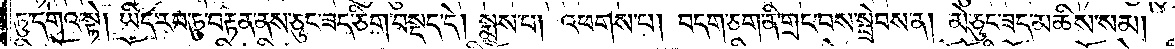ཏུ་དགའ་སྟེ། ཡིད་རབ་ཏུ་བརྟན་ནས་ཅུང་ཟད་ཅིག་བསྡད་དེ། སྨྲས་པ། འཕགས་པ། བདག་ཅག་ནི་གྲང་བས་སྦྲེབས་ན། མེ་ཅུང་ཟད་མཆིས་སམ། དེས་སྨྲས་པ། ཁོ་བོ་
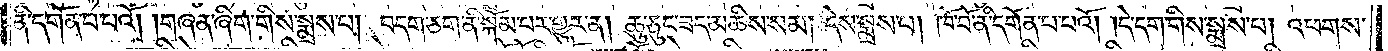ནི་དགོན་པ་པའོ། །གཞན་ཞིག་གིས་སྨྲས་པ། བདག་ཅག་ནི་སྐོམ་པར་གྱུར་ན། ཆུ་ཅུང་ཟད་མཆིས་སམ། དེས་སྨྲས་པ། ཁོ་བོ་ནི་དགོན་པ་པའོ། །དེ་དག་གིས་སྨྲས་པ། འཕགས་
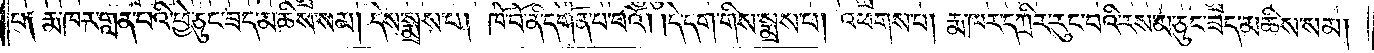པ༑ རྨ་ཁར་གླན་པའི་ཕྱེ་ཅུང་ཟད་མཆིས་སམ། དེས་སྨྲས་པ། ཁོ་བོ་ནི་དགོན་པ་པའོ། །དེ་དག་གིས་སྨྲས་པ། འཕགས་པ། རྨ་ཁར་དཀྲིར་རུང་བའི་རས་མ་ཅུང་ཟད་མཆིས་སམ།
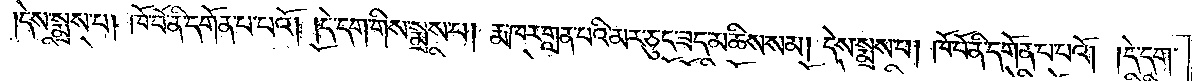དེས་སྨྲས་པ། ཁོ་བོ་ནི་དགོན་པ་པའོ། །དེ་དག་གིས་སྨྲས་པ། རྨ་ཁར་གླན་པའི་མར་ཅུང་ཟད་མཆིས་སམ། དེས་སྨྲས་པ། ཁོ་བོ་ནི་དགོན་པ་པའོ། །དེ་དག་
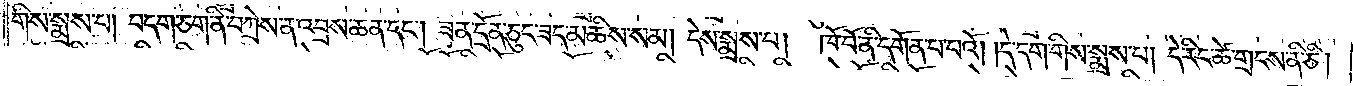གིས་སྨྲས་པ། བདག་ཅག་ནི་བཀྲེས་ན་འབྲས་ཆན་དང༌། ཟན་དྲོན་ཅུང་ཟད་མཆིས་སམ། དེས་སྨྲས་པ། ཁོ་བོ་ནི་དགོན་པ་པའོ། །དེ་དག་གིས་སྨྲས་པ། དེ་རིང་ཚེ་གྲངས་ནི་ཅི།
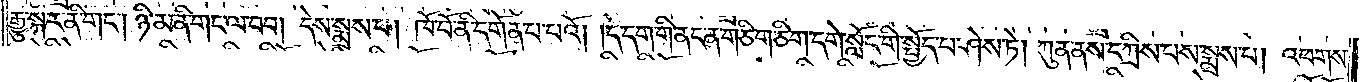རྒྱུ་སྐར་ནི་གང༌། ཉི་མ་ནི་གང་ལ་བབ། དེས་སྨྲས་པ། ཁོ་བོ་ནི་དགོན་པ་པའོ། །དེ་དག་གི་ནང་ན་གཅིག་ཅིག་དགེ་སློང་གི་སྤྱོད་པ་ཤེས་ཏེ། ཀུན་ནས་དཀྲིས་པས་སྨྲས་པ། འཕགས་
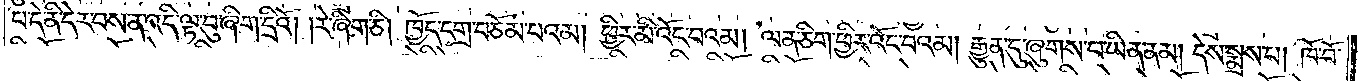པ་དེ་ནི་དེར་བས་ན་འདི་ལྟ་བུ་ཞིག་དྲིའོ། །རེ་ཞིག་ཅི། ཁྱོད་དགྲ་བཅོམ་པའམ། ཕྱིར་མི་འོང་བའམ། ལན་ཅིག་ཕྱིར་འོང་བའམ། རྒྱུན་དུ་ཞུགས་པ་ཡིན་ནམ། དེས་སྨྲས་པ། ཁོ་བོ་
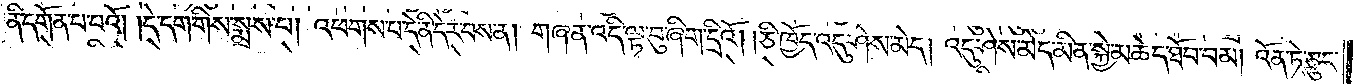ནི་དགོན་པ་པའོ། །དེ་དག་གིས་སྨྲས་པ། འཕགས་པ་དེ་ནི་དེར་བས་ན། གཞན་འདི་ལྟ་བུ་ཞིག་དྲིའོ། །ཅི་ཁྱོད་འདུ་ཤེས་མེད། འདུ་ཤེས་མེད་མིན་སྐྱེ་མཆེད་ཐོབ་བམ། འོན་ཏེ་ཅུང་
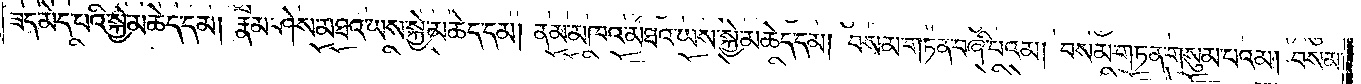ཟད་མེད་པའི་སྐྱེ་མཆེད་དམ། རྣམ་ཤེས་མཐའ་ཡས་སྐྱེ་མཆེད་དམ། ནམ་མཁའ་མཐའ་ཡས་སྐྱེ་མཆེད་དམ། བསམ་གཏན་བཞི་པའམ། བསམ་གཏན་གསུམ་པའམ། བསམ་
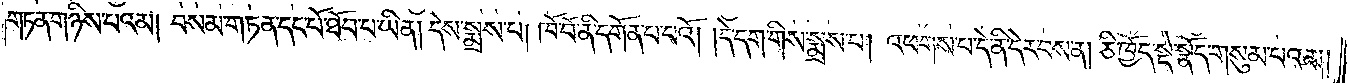གཏན་གཉིས་པའམ། བསམ་གཏན་དང་པོ་ཐོབ་པ་ཡིན། དེས་སྨྲས་པ། ཁོ་བོ་ནི་དགོན་པ་པའོ། །དེ་དག་གིས་སྨྲས་པ། འཕགས་པ་དེ་ནི་དེར་བས་ན། ཅི་ཁྱོད་སྡེ་སྣོད་གསུམ་པའམ།
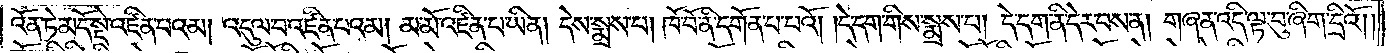འོན་ཏེ་མདོ་སྡེ་འཛིན་པའམ། འདུལ་བ་འཛིན་པའམ། མ་མོ་འཛིན་པ་ཡིན། དེས་སྨྲས་པ། ཁོ་བོ་ནི་དགོན་པ་པའོ། །དེ་དག་གིས་སྨྲས་པ། དེ་དག་ནི་དེར་བས་ན། གཞན་འདི་ལྟ་བུ་ཞིག་དྲིའོ༎
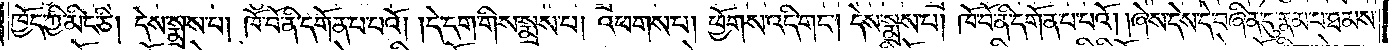ཁྱོད་ཀྱི་མིང་ཅི། དེས་སྨྲས་པ། ཁོ་བོ་ནི་དགོན་པ་པའོ། །དེ་དག་གིས་སྨྲས་པ། འཕགས་པ། ཕྱོགས་འདི་གང༌། དེས་སྨྲས་པ། ཁོ་བོ་ནི་དགོན་པ་པའོ། །ཞེས་དེས་དེ་བཞིན་དུ་རྣམ་པ་ཐམས་
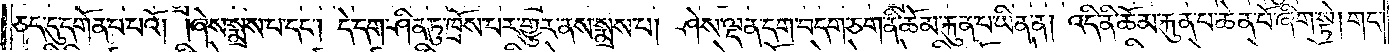ཅད་དུ་དགོན་པ་པའོ། །ཞེས་སྨྲས་པ་དང༌། དེ་དག་ཤིན་ཏུ་ཁྲོས་པར་གྱུར་ནས་སྨྲས་པ། ཤེས་ལྡན་དག་བདག་ཅག་ནི་ཆོམ་རྐུན་པ་ཡིན་ན། འདི་ནི་ཆོམ་རྐུན་པ་ཆེན་པོ་ཞིག་སྟེ། གང་
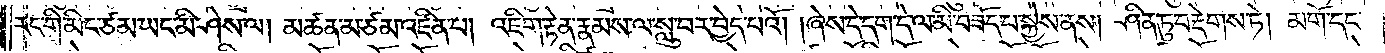རང་གི་མིང་ཙམ་ཡང་མི་ཤེས་ལ། མཚན་མ་ཙམ་འཛིན་པ། འཇིག་རྟེན་རྣམས་ལ་སླུ་བར་བྱེད་པའོ། །ཞེས་དེ་དག་དེ་ལ་མི་བཟོད་པ་སྐྱེས་ནས། ཤིན་ཏུ་བརྡེགས་ཏེ། མགོ་དང་
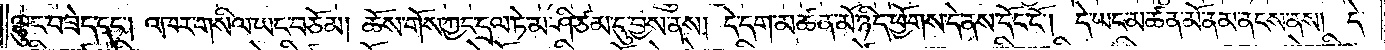ལྷུང་བཟེད་དང༌། འཁར་གསིལ་ཡང་བཅོམ། ཆོས་གོས་ཀྱང་དྲལ་ཏེ་མ་ཤི་ཙམ་དུ་བྱས་ནས། དེ་དག་མཚན་མོ་ཉིད་ཕྱོགས་དེ་ནས་དོང་ངོ༌། དེ་ཡང་མཚན་མོ་ནམ་ནངས་ནས། དེ་
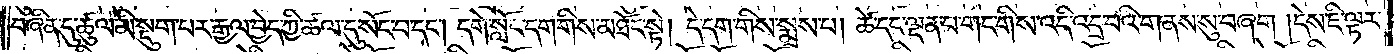བཞིན་དུ་ཚུལ་མི་སྡུག་པར་རྒྱལ་བྱེད་ཀྱི་ཚལ་དུ་སོང་བ་དང༌། དགེ་སློང་དག་གིས་མཐོང་སྟེ། དེ་དག་གིས་སྨྲས་པ། ཚེ་དང་ལྡན་པ་གང་གིས་འདི་འདྲ་བའི་གནས་སུ་བཞག །དེས་ཇི་ལྟར་
